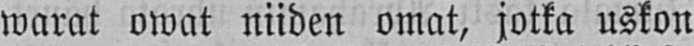warat owat niiden omat, jotka uskon
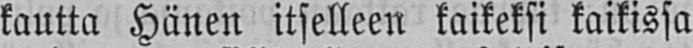kautta Hänen itselleen kaikeksi kaikissa
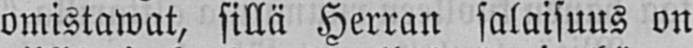omistawat, sillä Herran salaisuus on
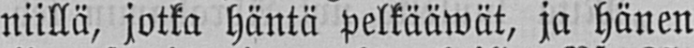niillä, jotka häntä pelkääwät, ja hänen
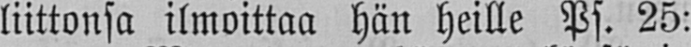liittonsa ilmoittaa hän heille Ps. 25:
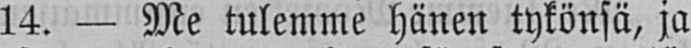14. — Me tulemme hänen tykönsä, ja
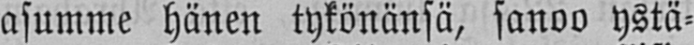asumme hänen tykönänsä, sanoo ystä-
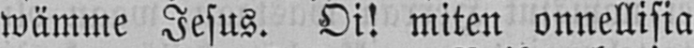wämme Jesus. Oi! miten onnellisia
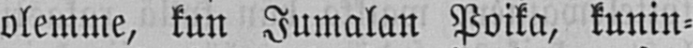olemme, kun Jumalan Poika, kunin-
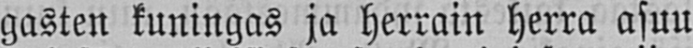gasten kuningas ja herrain herra asuu
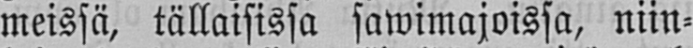meissä, tällaisissa sawimajoissa, niin-
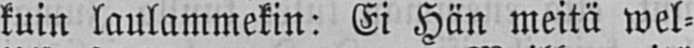kuin laulammekin: Ei Hän meitä wel-
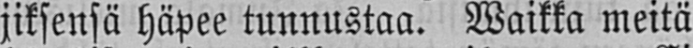jiksensä häpee tunnustaa. Waikka meitä
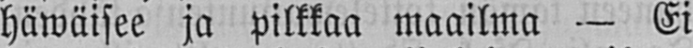häwäisee ja pilkkaa maailma — Ei
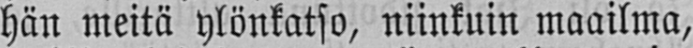hän meitä ylönkatso, niinkuin maailma,
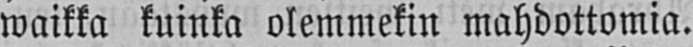waikka kuinka olemmekin mahdottomia.
